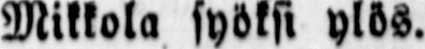Mikkola syöksi ylös.
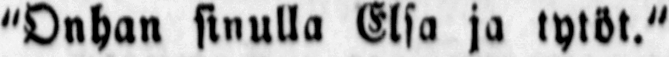"Onhan sinulla Elsa ja tytöt."
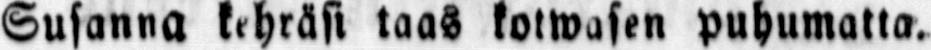Susanna kehräsi taas kotwasen puhumatta.
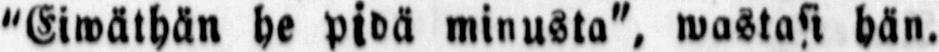"Eiwäthän he pidä minusta", wastasi hän.
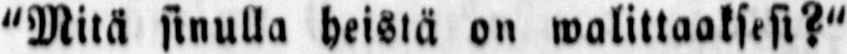"Mitä sinulla heistä on walitttaaksesi?"
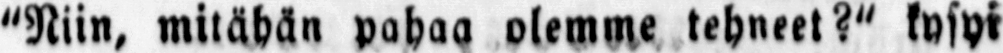"Niin, mitähän pahaa olemme tehneet?" kysyi
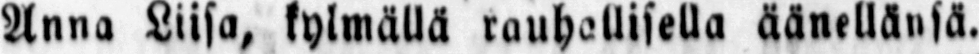Anna Liisa, kylmällä rauhallisella äänellänsä.
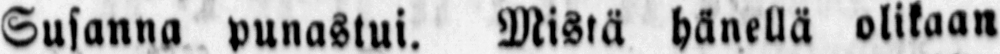Susanna punastui. Mistä hänellä olikaan
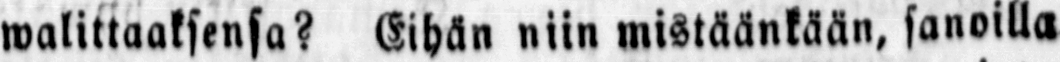walittaaksensa? Eihän niin mistäänkään, sanoilla
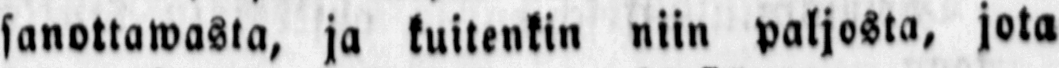sanottawasta, ja kuitenkin niin paljosta, jota
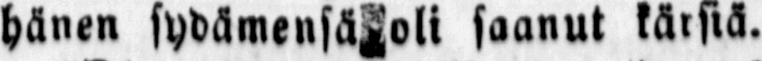hänen sydämensä oli saanut kärsiä.
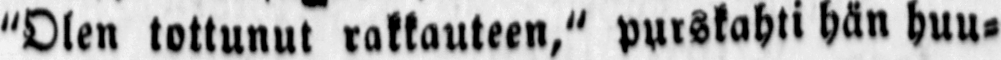"Olen tottunut rakkauteen," purskahti hän huu-
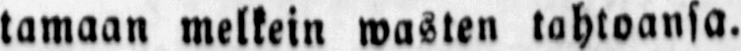tamaan melkein wasten tahtoansa.
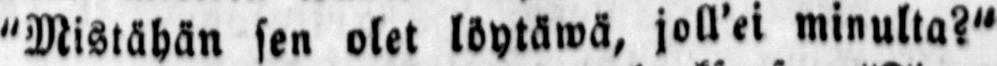"Mistähän sen olet löytäwä, joll'ei minulta?"
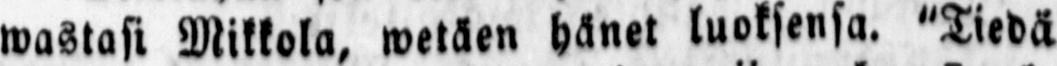wastasi Mikkola, wetäen hänet luoksensa. "Tiedä
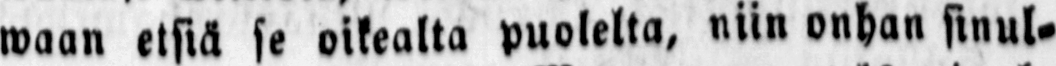waan etsiä se oikealta puolelta, niin onhan sinul-
